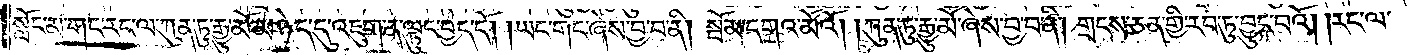སློང་མ་གང་རང་ལ་ཀུན་ཏུ་རྒྱུ་མོ་མཉེད་དུ་འཇུག་ན་ལྟུང་བྱེད་དོ། །ཡང་གང་ཞེས་བྱ་བ་ནི། སྦོམ་དགའ་མོའོ། །ཀུན་ཏུ་རྒྱུ་མོ་ཞེས་བྱ་བ་ནི། གྲངས་ཅན་གྱི་རབ་ཏུ་བྱུང་བའོ། །རང་ལ་
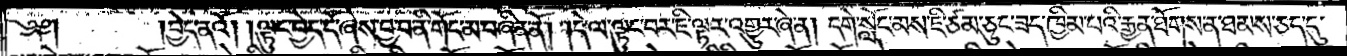༄༅༎བྱེད་ནའོ། །ལྟུང་བྱེད་དོ་ཞེས་བྱ་བ་ནི་གོང་མ་བཞིན་ནོ། །དེ་ལ་ལྟུང་བར་ཇི་ལྟར་འགྱུར་ཞེ་ན། དགེ་སློང་མས་ཇི་ཙམ་ཅུང་ཟད་ཁྱིམ་པའི་རྒྱན་ཐོགས་ན་ཐམས་ཅད་དུ།
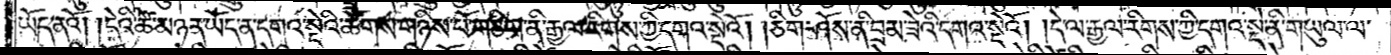ཡོད་ནའོ། །དེའི་ཚེ་མཉན་ཡོད་ན་དགའ་སྡེའི་ཚོགས་གཉིས་པོ་གཅིག་ནི་རྒྱལ་རིགས་ཀྱི་དགའ་སྡེའོ། །ཅིག་ཤོས་ནི་བྲམ་ཟེའི་དགའ་སྡེའོ། །དེ་ལ་རྒྱལ་རིགས་ཀྱི་དགའ་སྡེ་ནི་གཡུལ་ལ་
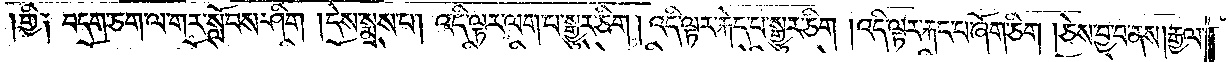གྱི༑ བདག་ཅག་ལ་གར་སློབས་ཤིག །དེས་སྨྲས་པ། འདི་ལྟར་ལག་པ་སྒྱུར་ཅིག །འདི་ལྟར་རྐེད་པ་སྒྱུར་ཅིག །འདི་ལྟར་རྐང་བ་ཞོག་ཅིག །ཅེས་བྱ་བ་ནས། རྒྱལ་
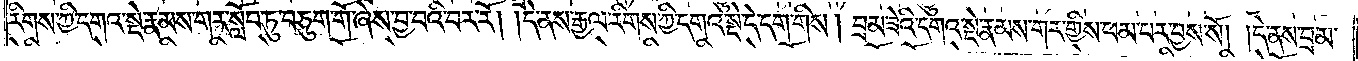རིགས་ཀྱི་དགའ་སྡེ་རྣམས་གར་སློབ་ཏུ་བཅུག་གོ་ཞེས་བྱ་བའི་བར་རོ། །དེ་ནས་རྒྱལ་རིགས་ཀྱི་དགའ་སྡེ་དེ་དག་གིས། བྲམ་ཟེའི་དགའ་སྡེ་རྣམས་གར་གྱིས་ཕམ་པར་བྱས་སོ། །དེ་ནས་བྲམ་
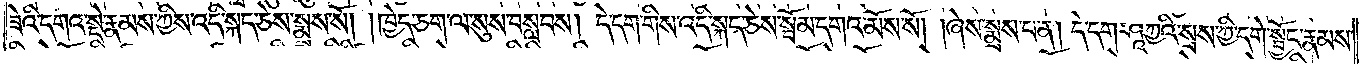ཟེའི་དགའ་སྡེ་རྣམས་ཀྱིས་འདི་སྐད་ཅེས་སྨྲས་སོ། །ཁྱེད་ཅག་ལ་སུས་བསླབས། དེ་དག་གིས་འདི་སྐད་ཅེས་སྦོམ་དགའ་མོས་སོ། །ཞེས་སྨྲས་པ་ན། དེ་དག་ཤཱཀྱའི་སྲས་ཀྱི་དགེ་སྦྱོང་རྣམས་
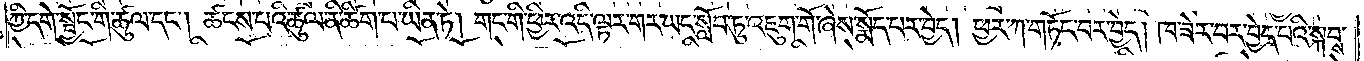ཀྱི་དགེ་སྦྱོང་གི་ཚུལ་དང༌། ཚངས་པའི་ཚུལ་ནི་ཚིག་པ་ཡིན་ཏེ། གང་གི་ཕྱིར་འདི་ལྟར་གར་ཡང་སློབ་ཏུ་འཇུག་གོ་ཞེས་སྨོད་པར་བྱེད། ཕྱར་ཀ་གཏོང་བར་བྱེད། ཁ་ཟེར་བར་བྱེད་པའི་སྐབས་
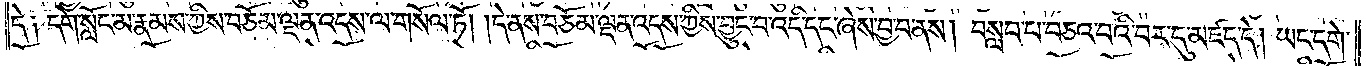དེ༑ དགེ་སློང་མ་རྣམས་ཀྱིས་བཅོམ་ལྡན་འདས་ལ་གསོལ་ཏོ། །དེ་ནས་བཅོམ་ལྡན་འདས་ཀྱིས་བྱུང་བ་འདི་དང་ཞེས་བྱ་བ་ནས། བསླབ་པ་བཅའ་བའི་བར་དུ་མཛད་དེ། ཡང་དགེ་
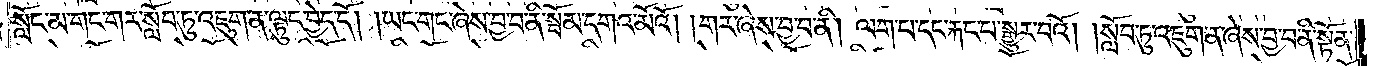སློང་མ་གང་གར་སློབ་ཏུ་འཇུག་ན་ལྟུང་བྱེད་དོ། །ཡང་གང་ཞེས་བྱ་བ་ནི་སྦོམ་དགའ་མོའོ། །གར་ཞེས་བྱ་བ་ནི། ལག་པ་དང་རྐང་པ་སྒྱུར་བའོ། །སློབ་ཏུ་འཇུག་ན་ཞེས་བྱ་བ་ནི་སྟོན་
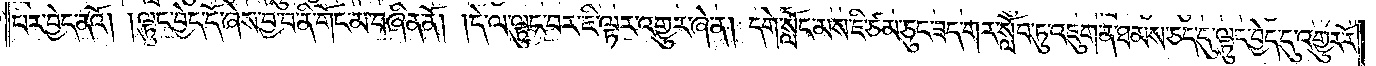པར་བྱེད་ནའོ། །ལྟུང་བྱེད་དོ་ཞེས་བྱ་བ་ནི་གོང་མ་བཞིན་ནོ། །དེ་ལ་ལྟུང་བར་ཇི་ལྟར་འགྱུར་ཞེ་ན། དགེ་སློང་མས་ཇི་ཙམ་ཅུང་ཟད་གར་སློབ་ཏུ་འཇུག་ན་ཐམས་ཅད་དུ་ལྟུང་བྱེད་དུ་འགྱུར་རོ་
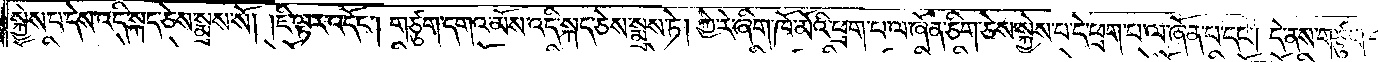སྐྱེས་པ་དེས་འདི་སྐད་ཅེས་སྨྲས་སོ། །ཇི་ལྟར་འདོང༌། གཙུག་དགའ་མོས་འདི་སྐད་ཅེས་སྨྲས་ཏེ། ཀྱེ་རེ་ཞིག་ཁོ་མོའི་ཕྲག་པ་ལ་ཞོན་ཅིག་ཅེས་སྐྱེས་པ་དེ་ཕྲག་པ་ལ་ཞོན་པ་དང༌། དེ་ནས་གཙུག་དགའ་
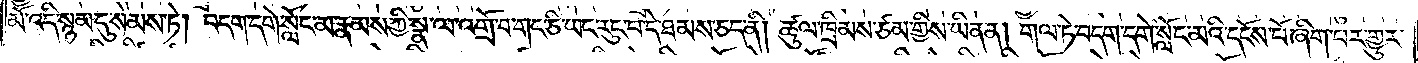མོ་འདི་སྙམ་དུ་སེམས་ཏེ། བདག་དགེ་སློང་མ་རྣམས་ཀྱི་སྣ་ལ་འགྲོ་བ་གང་ཅི་ཡང་རུང་བ་དེ་ཐམས་ཅད་ནི། ཚུལ་ཁྲིམས་ཙམ་གྱིས་ཡིན་ན། གལ་ཏེ་བདག་དགེ་སློང་མའི་དངོས་པོ་ཞིག་པར་གྱུར་
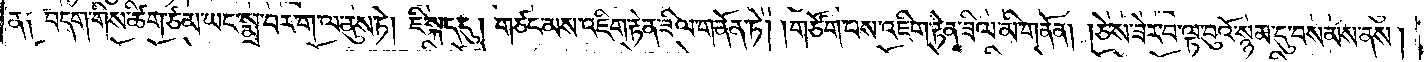ན༑ བདག་གིས་ཚིག་ཙམ་ཡང་སྨྲ་བར་ག་ལ་ནུས་ཏེ། ཇི་སྐད་དུ། གཙང་མས་འཇིག་རྟེན་ཟིལ་གནོན་ཏེ། །གཙོག་པས་འཇིག་རྟེན་ཟིལ་མི་གནོན། །ཅེས་ཟེར་བ་ལྟ་བུའོ་སྙམ་དུ་བསམས་ནས།
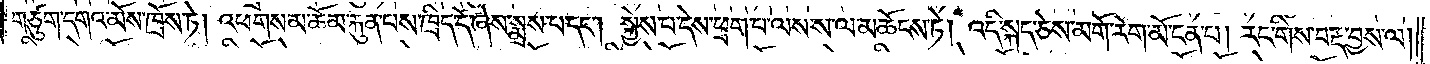གཙུག་དགའ་མོས་ཁྲོས་ཏེ། འཕགས་མ་ཆོམ་རྐུན་པས་ཁྲིད་དོ་ཞེས་སྨྲས་པ་དང༌། སྐྱེས་པ་དེས་ཕྲག་པ་ལས་ས་ལ་མཆོངས་ཏེ། འདི་སྐད་ཅེས་མགོ་རེག་མོ་ངན་པ། རང་གིས་བརྡ་བྱས་ལ།
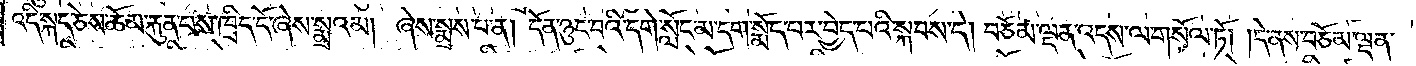འདི་སྐད་ཅེས་ཆོམ་རྐུན་པས་ཁྲིད་དོ་ཞེས་སྨྲའམ། ཞེས་སྨྲས་པ་ན། དོན་ཉུང་བའི་དགེ་སློང་མ་དག་སྨོད་པར་བྱེད་པའི་སྐབས་དེ། བཅོམ་ལྡན་འདས་ལ་གསོལ་ཏོ། །དེ་ནས་བཅོམ་ལྡན་
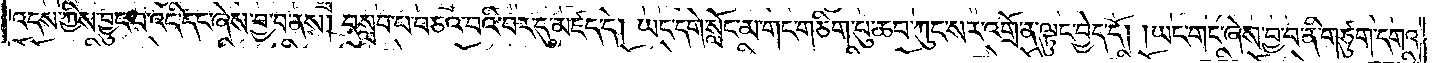འདས་ཀྱིས་བྱུང་བ་འདི་དང་ཞེས་བྱ་བ་ནས། བསླབ་པ་བཅའ་བའི་བར་དུ་མཛད་དེ། ཡང་དགེ་སློང་མ་གང་གཅིག་པུ་ཆབ་ཀུང་སར་འགྲོ་ན་ལྟུང་བྱེད་དོ། །ཡང་གང་ཞེས་བྱ་བ་ནི་གཙུག་དགའ་
